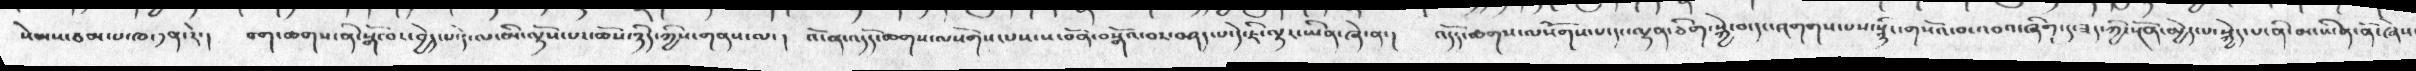སེམས་ཙམ་པ་ཁ་༡ན་རེ་།  བག་ཆགས་ནི་སྒོ་བར་བྱེད་པ་དེ་ལ་མི་ལྟོས་པར་ཆོས་ཉིད་ཀྱིས་གནས་ལ་།  འོ་ན་འདོད་ཆགས་ལསོགས་པས་ས་བོན་བསྒོ་བར་བཤད་པ་དེ་ཇི་ལྟར་ཡིན་ཞེ་།   འདོད་ཆགས་ལསོགས་པ་དང་ལྷན་ཅིག་སྐྱེ་བ་དང་འགགས་པས་སྙིང་གསོའ་བ་འབའ་ཞིག་དུ་ཟད་ཀྱི་སྔོན་མྱེད་པ་སྐྱེད་པ་ནི་མ་ཡིན་ནོ་ཞེས་
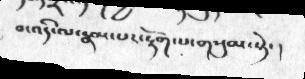བ་འདི་ལ་རྣམ་པར་རྟོག་པ་གསུམ་སྟེ་།
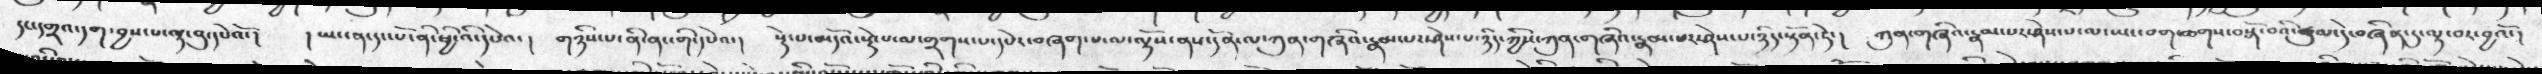དང་དགྲའ་དག་བྱས་པ་ལྟ་བུ་དཔེའོ་།   ། ཡང་ན་དང་པོ་ནི་ཕྱི་ཡི་དཔེའ་།   གཉིས་པ་ནི་ནང་གི་དཔེའ་།   སྡེ་པ་མདོའ་སྡེ་པ་ལ་གྲགས་པ་དཔེར་བཞག་པ་ལ་ལྟོས་ནས་དོན་ལ་ཀུན་གཞིའ་རྣམ་པར་ཤེས་པ་ཉིད་ཀྱིས་ཀུན་གཞིའ་རྣམ་པར་ཤེས་པ་ཉིད་སྟོན་ཏེ་།  ཀུན་གཞིའ་རྣམ་པར་ཤེས་པ་ལ་ཡང་བག་ཆགས་བསྒོ་བའི་ཚུལ་དེ་བཞིན་དུ་ལྟ་བར་བྱའོ་།
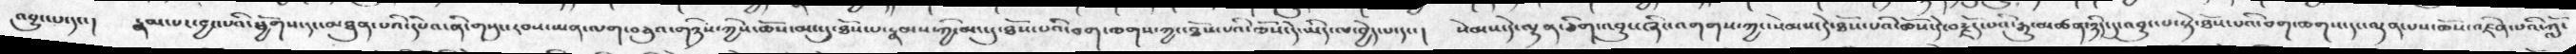འབྱུང་པ་དང་།    རྣམ་པར་བྱང་པའི་ཕྱོགས་དང་མཐུན་པའི་དཔེའ་ནི་་གསུང་རབས་ཡན་ལག་བཅུའ་གཉིས་ཀྱིས་ཆོས་མང་དུ་ཐོས་པ་རྣམས་ཀྱི་མང་དུ་ཐོས་པའི་བག་ཆགས་ཀྱང་ཐོས་པའི་ཆོས་དེ་ཡིད་ལ་བྱེད་པ་དང་།    སེམས་དེ་ལྷན་ཅིག་འབྱུང་ཞིང་འགགས་ཀྱང་སེམས་དེ་ཐོས་པའི་ཆོས་དེ་བརྗོད་པའི་རྒྱུ་མཚན་ཉིད་དུ་འབྱུང་པ་སྟེ་ཐོས་པའི་བག་ཆགས་དང་ལྡན་པས་ཆོས་འཛིན་པའི་ཀློ་
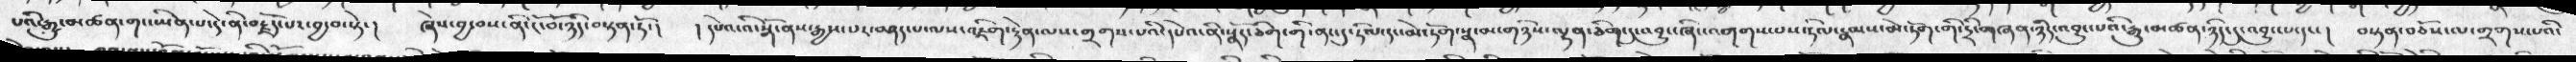པའི་རྒྱུ་མཚན་གང་ཡིན་པ་དེ་ནི་བརྗོད་པར་བྱ་བ་སྟེ་།  ཞེས་བྱ་བས་ནི་ངོ་བོ་ཉིད་བསྟན་ཏོ་།   དཔེའ་འི་སྒོ་ནས་པར་བཤད་པ་ལས་འཇིག་རྟེན་ལས་གྲགས་པའི་དཔེའ་ནི་སྣོད་ཅིག་གི་ནང་དུ་ཏིལ་དང་མེ་ཏོག་སྣ་མ་གཉིས་ལྡན་ཅིག་དུ་འབྱུང་ཞིང་འགགས་པས་ཏིལ་རྣམས་མེ་ཏོག་གི་དྲི་གཞན་ཉིད་འབྱུང་པའི་རྒྱུ་མཚན་ཉིད་དུ་འབྱུང་པ་དང་།   བསྟན་བཅོས་ལ་གྲགས་པའི་
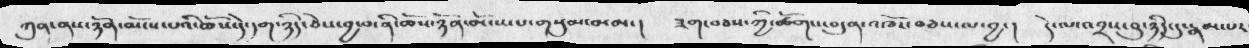ཀུན་ནས་ཉོན་མོངས་པའི་ཆོས་དེ་དག་ཉིད་ཅེས་བྱ་བ་ནི་ཆོས་ཉོན་མོངས་པ་གསུམ་མམ་།   ཟག་བཅས་ཀྱི་ཚོགས་བདུན་འཁོར་བཅས་ལ་བྱ་།   དེ་ལ་འབྲས་བུ་ཉིད་དུ་རྣམ་པར
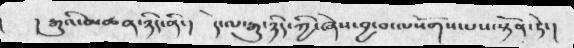།    ། རྒྱུའི་མཚན་ཉིད་ནི་།   དེ་ལ་རྒྱུ་ཉིད་ཀྱི་ཞེས་བྱ་བ་ལསོགས་པས་སྟོན་ཏེ་།
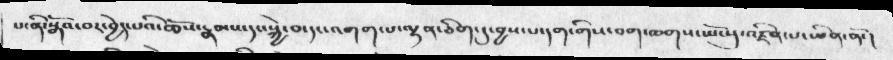པ་ནི་སྒོའ་བར་བྱེད་པའི་ཆོས་རྣམས་དང་སྐྱེ་བ་དང་འགག་པ་ལྷན་ཅིག་དུ་བྱས་པ་དག་གིས་བག་ཆགས་ཡོངསུ་འཛིན་པ་ཡིན་ནོ་།
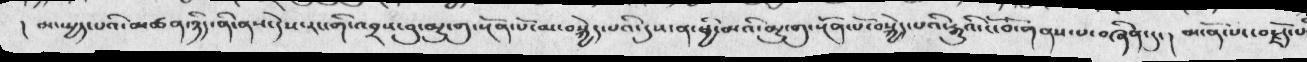། མ་སྤྱད་པའི་མཚན་ཉིད་ནི་ནས་དེས་རང་གི་འབྲས་བུ་མྱུ་གུ་སྔོན་པོ་མ་བསྐྱེད་པའི་དུས་ན་ཕྱི་མའི་མྱུ་གུ་སྔོན་པོ་བསྐྱེད་པའི་རྒྱུའི་ངོ་བོ་གནས་པ་བཞིན་དུ་།   མངོན་པར་བརྗོད་པ
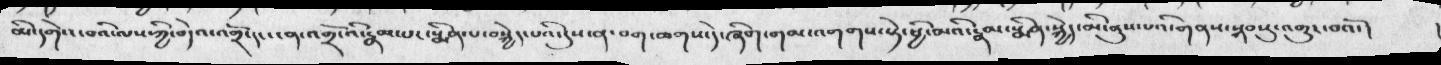མི་དགེའ་བའི་ལས་ཀྱི་བདེའ་འགྲོ་དང་ངན་འགྲོ་འི་རྣམ་པར་སྨིན་པ་བསྐྱེད་པའི་དུས་ན་བག་ཆགས་དེ་ཞིག་གམ་འགགས་སྟེ་ཕྱི་མའི་རྣམ་སྨིན་སྐྱེད་མི་ནུས་པའི་གནས་སྐབས་སུ་འགྱུར་བའོ་།
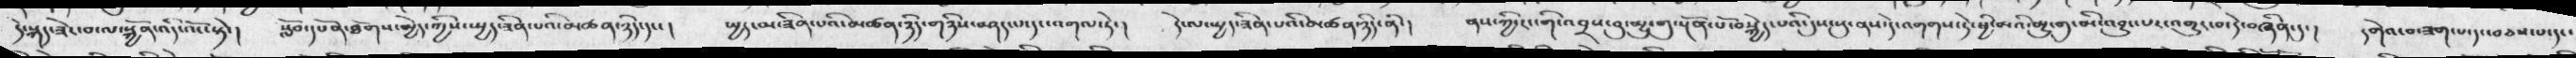དེ་སྐད་ཟེར་བ་ལ་སྐྱོན་འདི་འོང་སྟེ་།  སློབ་དཔོན་ཐོགས་མྱེད་ཀྱིས་སྤྱད་ཟིན་པའི་མཚན་ཉིད་དང་།  སྤྱད་མ་ཟིན་པའི་མཚན་ཉིད་གཉིས་བཤད་པ་དང་འགལ་ཏེ་།   དེ་ལ་སྤྱད་ཟིན་པའི་མཚན་ཉིད་ནི་།    ནས་ཀྱི་རང་གི་འབྲས་བུ་མྱུ་གུ་སྔོན་པོ་བསྐྱེད་པའི་དུས་སུ་ནས་ད་ེའགགས་ཏེ་ཕྱི་མའི་མྱུ་གུ་མི་འབྱུང་པར་འགྱུར་བ་དེ་བཞིན་དུ་།   དགེའ་བ་ཟག་པ་དང་་བཅས་པ་དང་
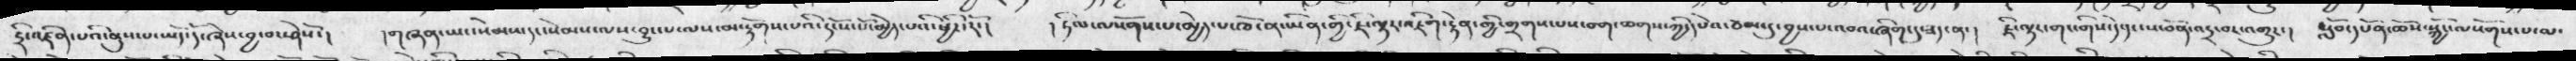དྲི་འཛིན་པའི་ནུས་པ་ཡོད་དོ་ཞེས་བྱ་བར་ཤེསོ་།   །གཞན་ཡང་སེམས་དང་སེམས་ལས་བྱུང་བ་ལས་མ་རྟོགས་པའི་དངོས་པོ་མྱེད་པའི་ཕྱིར་རོ་།  །ཏིལ་ལསོགས་པ་མྱེད་པ་ཁོ་ན་ཡིན་གྱི་ཇི་ལྟར་འཇིག་རྟེན་གྱི་གྲགས་པས་བག་ཆགས་ཀྱི་དཔེའ་ཙམ་དུ་བྱས་པ་འབའ་ཞིག་དུ་ཟད་ན་།  ཇི་ལྟར་གང་གིསདེ་དང་ས་བོན་འདྲ་བར་འགྱུར་།   སློབ་དཔོན་ཆོས་སྐྱོང་ལསོགས་པ་མ་
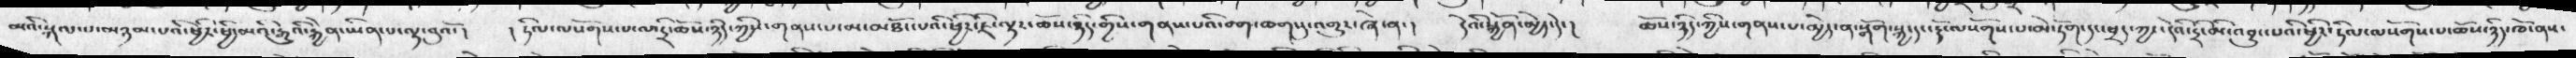མའི་སྐལ་པ་མཉམ་པའི་ཕྱིར་ཕྱི་མའི་རྒྱུའི་རྐྱེན་ཡིན་པ་ལྟ་བུའོ་།   ། ཏིལ་ལསོགས་པ་ལ་དྲི་ཆོས་ཉིད་ཀྱིས་གནས་པ་མ་མཐོང་པའི་ཕྱིར་ཇི་ལྟར་ཆོས་ཉིད་གྱིས་གནས་པའི་བག་ཆགསུ་འགྱུར་ཞེ་ན་།  དེའི་སྐྱོན་མྱེད་དེ་།  ཆོས་ཉིད་ཀྱིས་གནས་པ་མྱེད་ན་སྒོག་སྐྱ་དང་རྡོ་ལསོགས་པ་མེ་ཏོག་དང་ཕྲད་ཀྱང་དེའི་དྲི་མི་འབྱུང་པའི་ཕྱིར་ཏིལ་ལསོགས་པ་ཆོས་ཉིད་ཁོ་ནས་
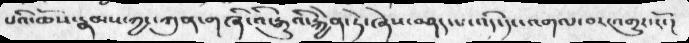པའི་ཆོས་རྣམས་ཀྱང་ཀུན་གཞི་འི་རྒྱུའི་རྐྱེན་ཏེ་ཞེས་བཤད་པ་འདི་དང་འགལ་བར་འགྱུར་རོ་།
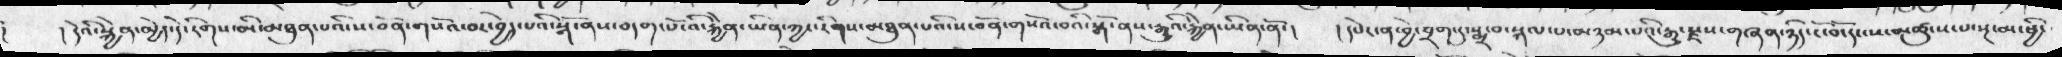༑    ། དེའི་སྐྱེན་མྱེད་དེ་རིགས་མི་མཐུན་པའི་ས་བོན་གསོའ་བར་བྱེད་པའི་སྒོ་ནས་བདག་པོ་འི་རྐྱེན་ཡིན་ཀྱང་རིགས་མཐུན་པའི་ས་བོན་གསོའ་བའི་སྒོ་ནས་རྒྱུའི་རྐྱེན་ཡིན་ནོ་།  ། དཔེར་ན་བྱེ་བྲག་དུ་སྨྲ་བ་སྐལ་པ་མཉམ་པའི་རྒྱུ་རྫས་གཞན་ཉིད་ངོ་བོ་དང་ས་མཚུངས་ལ་སྔ་མ་ཕྱི་
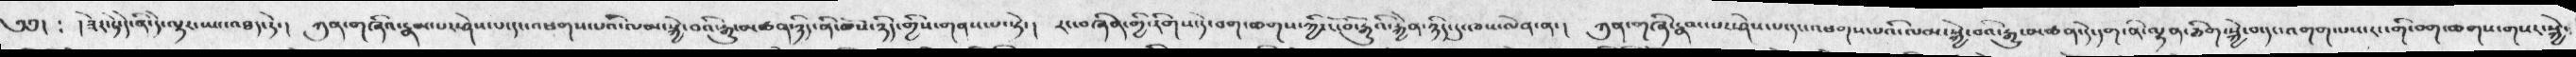༄༅། ༴ །ཟེར་ཏེ་དེ་ནི་དེ་ལྟར་ཡང་འཐད་དེ་།   ཀུན་གཞིའ་རྣམ་པར་ཤེས་པ་དང་འཕགས་པའི་ལམ་སྐྱེ་བའི་རྒྱུ་མཚན་ཉིད་ནི་ཆོས་ཉིད་གྱིས་གནས་པ་སྟེ་།  རང་བཞིན་གྱི་རིགས་དེ་བག་ཆགས་ཀྱི་ངོ་བོ་རྒྱུའི་རྐྱེན་ཉིད་དུ་ཁས་ལེན་ན་།  ཀུན་གཞི་རྣམ་པར་ཤེས་པ་དང་འཕགས་པའི་ལམ་སྐྱེ་བའི་རྒྱུ་མཚན་དེ་དག་ནི་ལྷན་ཅིག་སྐྱེ་བ་དང་འགག་པས་རང་གི་བག་ཆགས་གསར་སྐྱེ་
